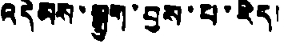འདེམས་སྒྲུག་བྱས་པ་རེད།
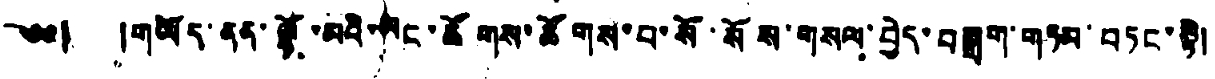༄༅། །གཡོད་ནན་ལྷོ་མའི་ཡང་ཚོགས་ཚོགས་པ་སོ་སོས་གསལ་བྱེད་བསྒྲག་གཏམ་བཏང་སྟེ།
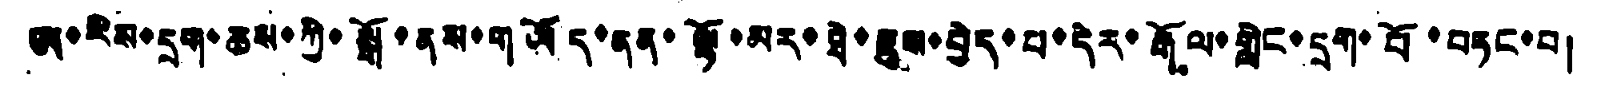ཨ་རིས་དྲག་ཆས་ཀྱི་སྒོ་ནས་གཡོད་ནན་ལྷོ་མར་ཐེ་ཇུས་བྱེད་པ་དེར་རྒོལ་གླེང་དྲག་པོ་བཏང་བ།
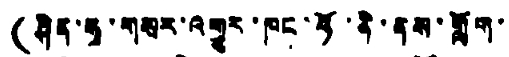(ཤིན་ཧྭ་གསར་འགྱུར་ཁང་ཧོ་ནི་ནས་གློག་
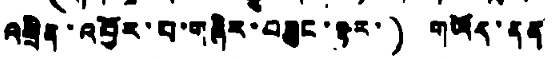འཕྲིན་འབྱོར་བ་གཞིར་བཟུང་ལྟར་) གཡོད་ནན
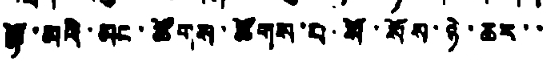ལྷོ་མའི་མང་ཚོགས་ཚོགས་པ་སོ་སོས་ཉེ་ཆར་་
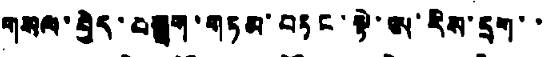གསལ་བྱེད་བསྒྲག་གཏམ་བཏང་སྟེ་ཨ་རིས་དྲག་་
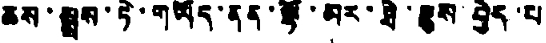ཆས་སྤྲས་ཏེ་གཡོད་ནན་ལྷོ་མར་ཐེ་ཇུས་བྱེད་པ
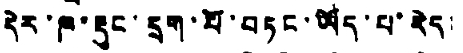དེར་ཁ་རྡུང་དྲག་པོ་བཏང་ཡོད་པ་རེད།
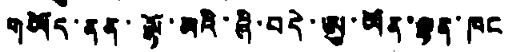གཡོད་ནན་ལྷོ་མའི་ཞི་བདེ་ཨུ་ཡོན་ལྷན་ཁང
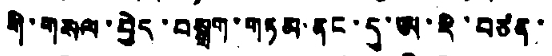གི་གསལ་བྱེད་བསྒྲག་གཏམ་ནང་དུ་ཨ་རི་བཙན་
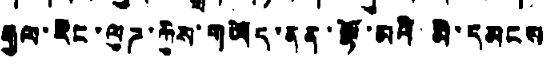རྒྱལ་རིང་ལུཌ་ཀྱིས་གཡོད་ནན་ལྷོ་མའི་མི་དམངས
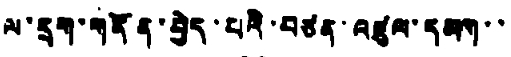ལ་དྲག་གནོན་བྱེད་པའི་བཙན་འཛུལ་དམག་་
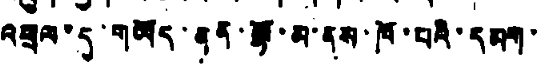འཕྲལ་དུ་གཡོད་ནན་ལྷོ་མ་ནས་ཁོ་པའི་དམག་
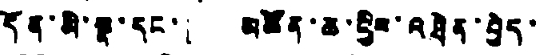དོན་མི་སྣ་དང་། མཚོན་ཆ་ཕྱིས་འཐེན་བྱེད་
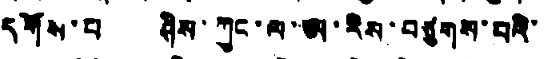དགོས་པ ཤིས་ཀུང་ལ་ཨ་རིས་བཙུགས་པའི་
